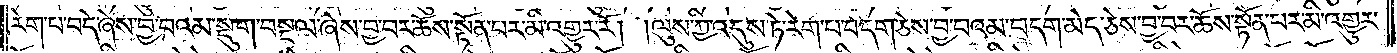རེག་པ་བདེ་ཞེས་བྱ་བའམ་སྡུག་བསྔལ་ཞེས་བྱ་བར་ཆོས་སྟོན་པར་མི་འགྱུར་རོ། །ལུས་ཀྱི་འདུས་ཏེ་རེག་པ་བདག་ཅེས་བྱ་བའམ་བདག་མེད་ཅེས་བྱ་བར་ཆོས་སྟོན་པར་མི་འགྱུར་
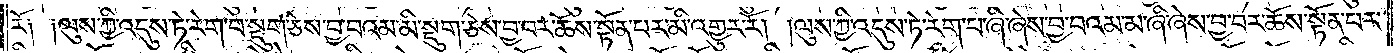རོ༑ ༑ལུས་ཀྱི་འདུས་ཏེ་རེག་པ་སྡུག་ཅེས་བྱ་བའམ་མི་སྡུག་ཅེས་བྱ་བར་ཆོས་སྟོན་པར་མི་འགྱུར་རོ། །ལུས་ཀྱི་འདུས་ཏེ་རེག་པ་ཞི་ཞེས་བྱ་བའམ་མ་ཞི་ཞེས་བྱ་བར་ཆོས་སྟོན་པར་
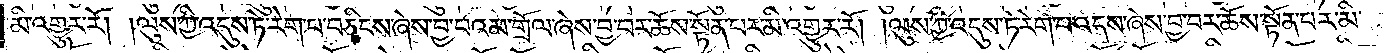མི་འགྱུར་རོ། །ལུས་ཀྱི་འདུས་ཏེ་རེག་པ་བཅིངས་ཞེས་བྱ་བའམ་གྲོལ་ཞེས་བྱ་བར་ཆོས་སྟོན་པར་མི་འགྱུར་རོ། །ལུས་ཀྱི་འདུས་ཏེ་རེག་པ་འདས་ཞེས་བྱ་བར་ཆོས་སྟོན་པར་མི་
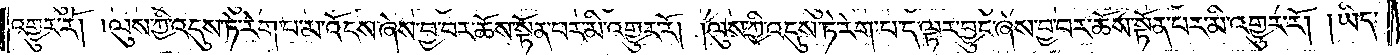འགྱུར་རོ། །ལུས་ཀྱི་འདུས་ཏེ་རེག་པ་མ་འོངས་ཞེས་བྱ་བར་ཆོས་སྟོན་པར་མི་འགྱུར་རོ། །ལུས་ཀྱི་འདུས་ཏེ་རེག་པ་ད་ལྟར་བྱུང་ཞེས་བྱ་བར་ཆོས་སྟོན་པར་མི་འགྱུར་རོ། །ཡིད་
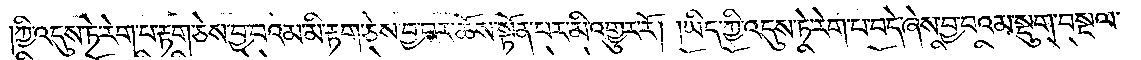ཀྱི་འདུས་ཏེ་རེག་པ་རྟག་ཅེས་བྱ་བའམ་མི་རྟག་ཅེས་བྱ་བར་ཆོས་སྟོན་པར་མི་འགྱུར་རོ། །ཡིད་ཀྱི་འདུས་ཏེ་རེག་པ་བདེ་ཞེས་བྱ་བའམ་སྡུག་བསྔལ་
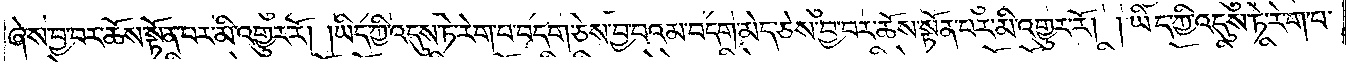ཞེས་བྱ་བར་ཆོས་སྟོན་པར་མི་འགྱུར་རོ། །ཡིད་ཀྱི་འདུས་ཏེ་རེག་པ་བདག་ཅེས་བྱ་བའམ་བདག་མེད་ཅེས་བྱ་བར་ཆོས་སྟོན་པར་མི་འགྱུར་རོ། །ཡིད་ཀྱི་འདུས་ཏེ་རེག་པ་
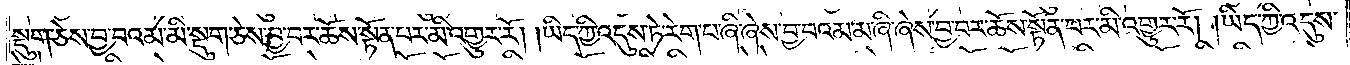སྡུག་ཅེས་བྱ་བའམ་མི་སྡུག་ཅེས་བྱ་བར་ཆོས་སྟོན་པར་མི་འགྱུར་རོ། །ཡིད་ཀྱི་འདུས་ཏེ་རེག་པ་ཞི་ཞེས་བྱ་བའམ་མ་ཞི་ཞེས་བྱ་བར་ཆོས་སྟོན་པར་མི་འགྱུར་རོ། །ཡིད་ཀྱི་འདུས་
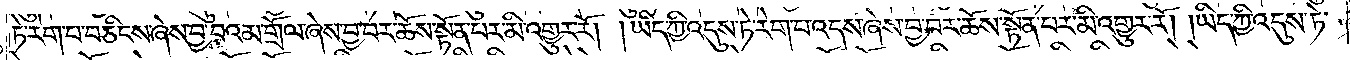ཏེ་རེག་པ་བཅིངས་ཞེས་བྱ་བའམ་གྲོལ་ཞེས་བྱ་བར་ཆོས་སྟོན་པར་མི་འགྱུར་རོ། །ཡིད་ཀྱི་འདུས་ཏེ་རེག་པ་འདས་ཞེས་བྱ་བར་ཆོས་སྟོན་པར་མི་འགྱུར་རོ། །ཡིད་ཀྱི་འདུས་ཏེ་
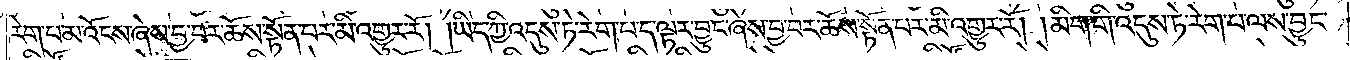རེག་པ་མ་འོངས་ཞེས་བྱ་བར་ཆོས་སྟོན་པར་མི་འགྱུར་རོ། །ཡིད་ཀྱི་འདུས་ཏེ་རེག་པ་ད་ལྟར་བྱུང་ཞེས་བྱ་བར་ཆོས་སྟོན་པར་མི་འགྱུར་རོ། །མིག་གི་འདུས་ཏེ་རེག་པ་ལས་བྱུང་
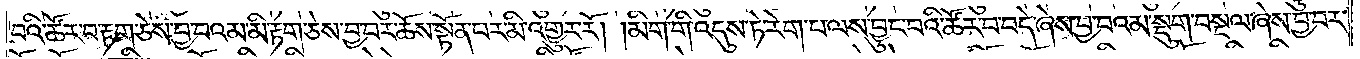བའི་ཚོར་བ་རྟག་ཅེས་བྱ་བའམ་མི་རྟག་ཅེས་བྱ་བར་ཆོས་སྟོན་པར་མི་འགྱུར་རོ། །མིག་གི་འདུས་ཏེ་རེག་པ་ལས་བྱུང་བའི་ཚོར་བ་བདེ་ཞེས་བྱ་བའམ་སྡུག་བསྔལ་ཞེས་བྱ་བར་
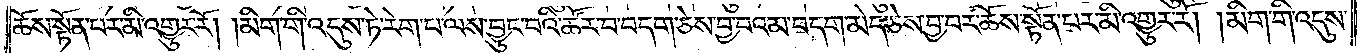ཆོས་སྟོན་པར་མི་འགྱུར་རོ། །མིག་གི་འདུས་ཏེ་རེག་པ་ལས་བྱུང་བའི་ཚོར་བ་བདག་ཅེས་བྱ་བའམ་བདག་མེད་ཅེས་བྱ་བར་ཆོས་སྟོན་པར་མི་འགྱུར་རོ། །མིག་གི་འདུས་
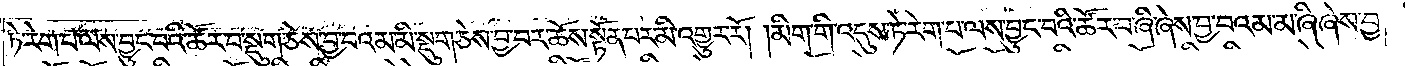ཏེ་རེག་པ་ལས་བྱུང་བའི་ཚོར་བ་སྡུག་ཅེས་བྱ་བའམ་མི་སྡུག་ཅེས་བྱ་བར་ཆོས་སྟོན་པར་མི་འགྱུར་རོ། །མིག་གི་འདུས་ཏེ་རེག་པ་ལས་བྱུང་བའི་ཚོར་བ་ཞི་ཞེས་བྱ་བའམ་མ་ཞི་ཞེས་བྱ་
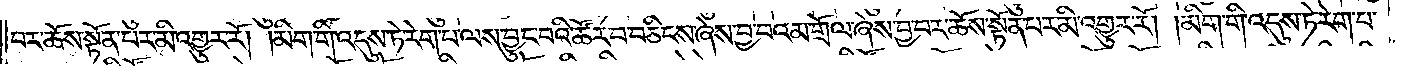བར་ཆོས་སྟོན་པར་མི་འགྱུར་རོ། །མིག་གི་འདུས་ཏེ་རེག་པ་ལས་བྱུང་བའི་ཚོར་བ་བཅིངས་ཞེས་བྱ་བའམ་གྲོལ་ཞེས་བྱ་བར་ཆོས་སྟོན་པར་མི་འགྱུར་རོ། །མིག་གི་འདུས་ཏེ་རེག་པ་
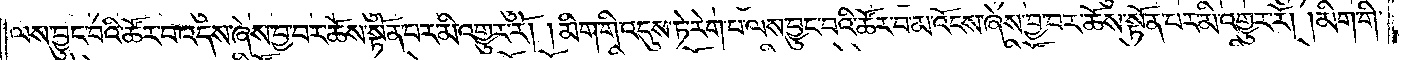ལས་བྱུང་བའི་ཚོར་བ་འདས་ཞེས་བྱ་བར་ཆོས་སྟོན་པར་མི་འགྱུར་རོ། །མིག་གི་འདུས་ཏེ་རེག་པ་ལས་བྱུང་བའི་ཚོར་བ་མ་འོངས་ཞེས་བྱ་བར་ཆོས་སྟོན་པར་མི་འགྱུར་རོ། །མིག་གི་
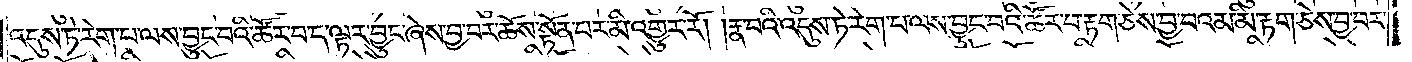འདུས་ཏེ་རེག་པ་ལས་བྱུང་བའི་ཚོར་བ་ད་ལྟར་བྱུང་ཞེས་བྱ་བར་ཆོས་སྟོན་པར་མི་འགྱུར་རོ། །རྣ་བའི་འདུས་ཏེ་རེག་པ་ལས་བྱུང་བའི་ཚོར་བ་རྟག་ཅེས་བྱ་བའམ་མི་རྟག་ཅེས་བྱ་བར་
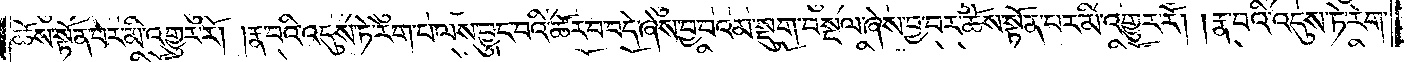ཆོས་སྟོན་པར་མི་འགྱུར་རོ། །རྣ་བའི་འདུས་ཏེ་རེག་པ་ལས་བྱུང་བའི་ཚོར་བ་བདེ་ཞེས་བྱ་བའམ་སྡུག་བསྔལ་ཞེས་བྱ་བར་ཆོས་སྟོན་པར་མི་འགྱུར་རོ། །རྣ་བའི་འདུས་ཏེ་རེག་
